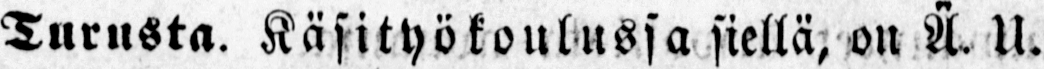Turusta. Käsityökoulussa siellä, on Å. U.
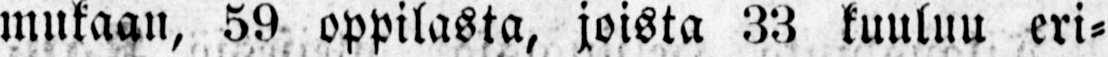mukaan, 59 oppilasta, joista 33 kuuluu eri-
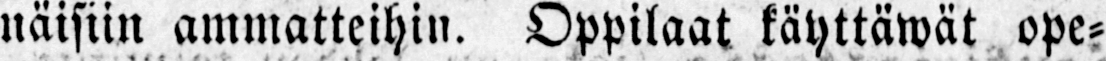näisiin ammatteihin. Oppilaat käyttäwät ope-
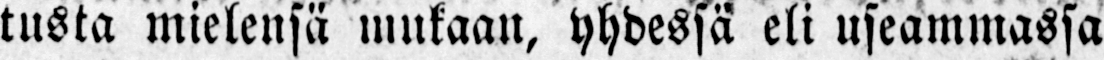tusta mielensä mukaan, yhdessä eli useammassa
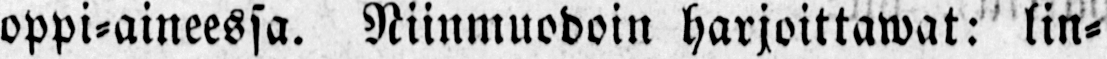oppi-aineessa. Niinmuodoin harjoittawat: lin-
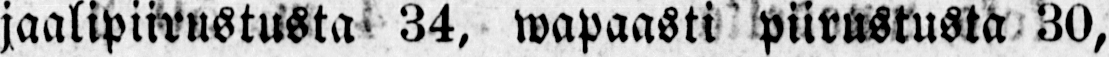jaalipiirustusta 34, wapaasti piirustusta 30,
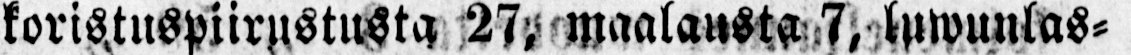koristuspiirustusta 27, maalausta 7, luwunlas-
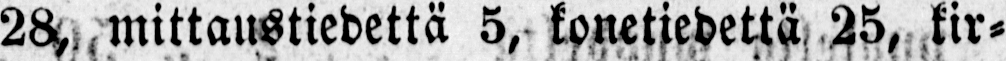kua 28, mittaustiedettä 5, konetiedettä 25, kir-
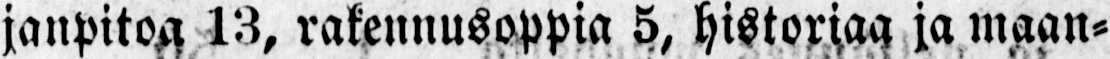janpitoa 13, rakennusoppia 5, historiaa ja maan-
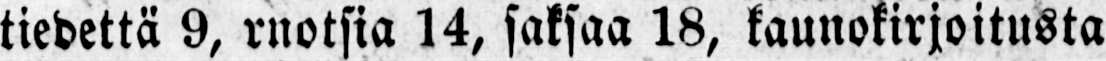tiedettä 9, rnotsia 14, saksaa 18, kaunokirjoitusta
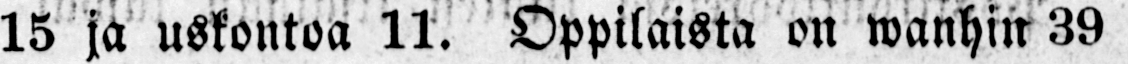15 ja uskontoa 11. Oppilaista on wanhin 39
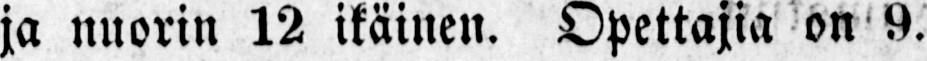ja nuorin 12 ikäinen. Opettajia on 9.
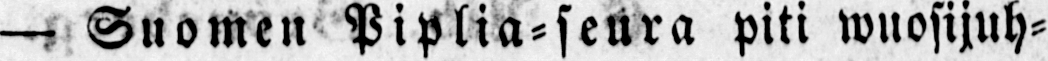— Suomen Piplia-seura piti wuosijuh-
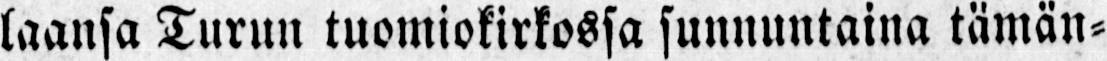laansa Turun tuomiokirkossa sunnuntaina tämän-
